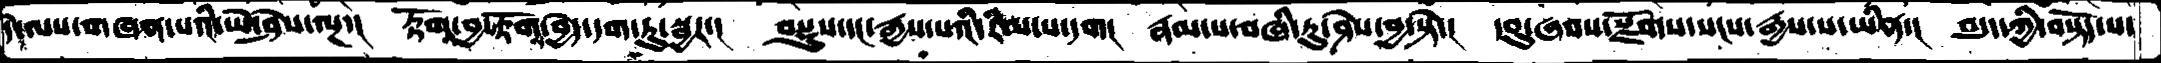དེ་ལས་གཞན་པའི་ཡེ་ཤེས་ལྔ་།  རྟོག་བྱ་རྟོག་བྱེད་དག་ཏུ་སྦྱར་།  བསྡུས་དང་རྒྱས་པའི་རིམ་པ་དག།  རྣམ་པ་བཞི་རུ་ཤེས་བྱ་སྟེ་།  དབུ་ཞབས་སྫོགས་སངས་རྒྱས་པ་ཡིན་།  བདུད་ཀྱི་བསྟོད་པ་
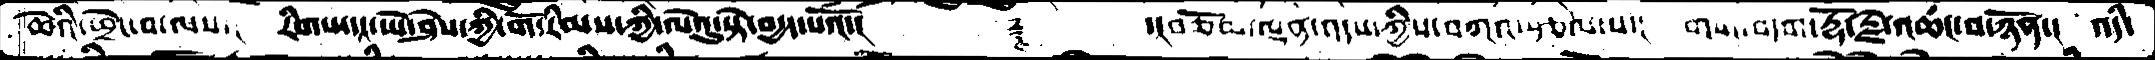ཆེའི་ཕྲེང་བ་ལས་།  རིགས་དང་ཡེ་ཤེས་ཀྱི་གོ་རིམས་ཀྱི་ལེའུ་སྟེ་བདྱད་པའོ་།      ༈       ་།བཅོམ་ལྡན་འདས་ཀྱིས་བཀའ་སྩལ་པ་།  གསང་བདག་རྡོ་རྗེ་འཆང་བ་ཉོན་།  འདི་
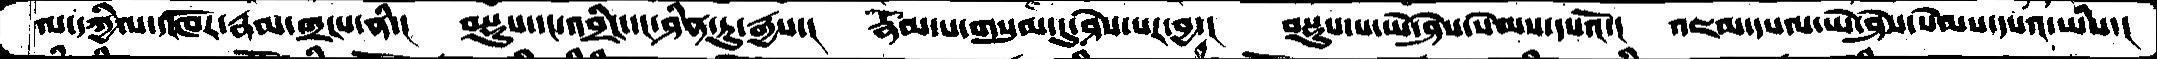ལ་དཀྱིལ་འཁོར་རྣམ་གྲངས་ནི་།  བསྡུས་དང་འབྲིང་དང་ཤིན་ཏུ་རྒྱས་།  རྣམ་པ་གསུམ་དུ་ཤེས་པར་བྱ་།  བསྡུས་པ་ཡེ་ཤེས་སེམས་དཔའོ་།  འཇམ་དཔལ་ཡེ་ཤེས་སེམས་དཔའ་ཡིས་།
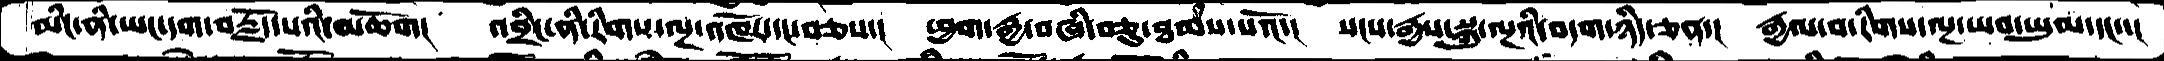མིང་ནི་ཡང་དག་བརྗོད་པའི་མཆོག།  འབྲིང་ནི་རིགས་ལྔ་འཁོར་དང་བཅས་།  ཕྱག་རྒྱ་བཞི་བཅུ་ཐམས་པའོ་།  སངས་རྒྱས་སྐུ་ལྔའི་བདག་ཉིད་ཅན་།  རྒྱལ་བ་རིགས་ལྔ་ཡབ་ཡུམ་དང་་།
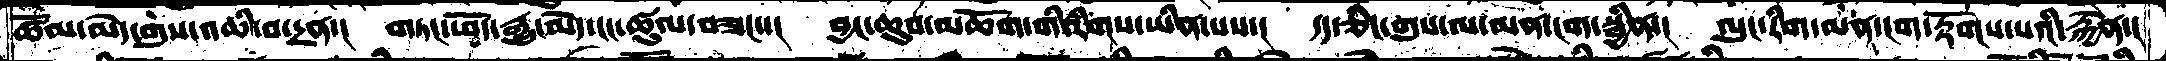ཚོམ་མེད་གུས་འཆི་བ་དྲན་།  གཏང་ཕོད་རྒྱུ་མེད་ངང་ཚུལ་བཟང་་།  བྱང་ཆུབ་མཆོག་གི་རིགས་ཡིན་པས་།  དད་ཅིང་གུས་ལ་མན་ངག་སྦྱིན་།  ལུང་རིག་མན་ངག་རྟོགས་པའི་རྐྱེན་།
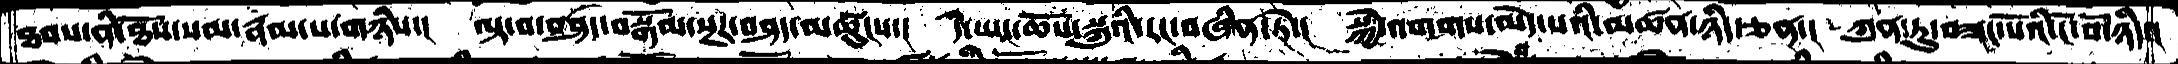ཐབས་ནི་ཐོས་སམ་རྣམ་པ་གཉིས་།  ལྟ་བ་བཤད་བསྒོམ་སྔར་བཤད་མཚུངས་།  དེ་ཡང་ཆོས་སྐུའི་རང་བཞིན་ཏེ་།  སྐྱེ་འགགས་མེད་པའི་མཚན་ཉིད་ཅན་།  ཀུན་ཏུ་བཟང་པོའི་ངོ་བོ་ཉིད་།
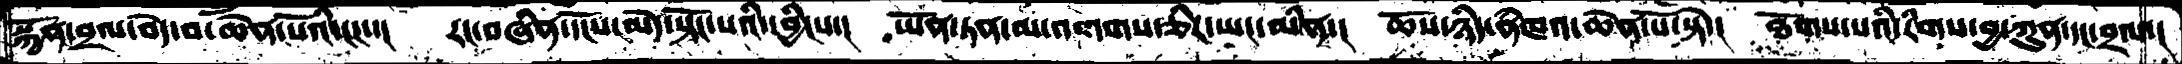སྐྱོན་བྲལ་བདེ་བ་ཆེན་པོའི་ངང་་།  རང་བཞིན་དངོས་མེད་སྟོང་པའི་དབྱིངས་།  ཡོན་ཏན་མ་འགགས་ཅིར་ཡང་མིན་།  ཆོས་ཉིད་ནཾཁའ་ཆེན་པོ་སྟེ་།  ཐོགས་པའི་རིགས་བྱ་ཀུན་དང་བྲལ་།
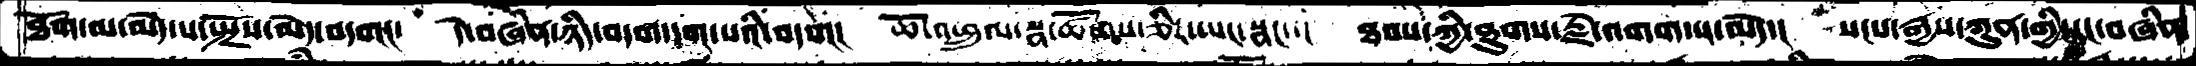ཐོག་མ་མེད་པ་སྤྲོས་མེད་བདག།་   དེ་བཞིན་ཉིད་བདག་དག་པའི་བདག།  ཆོ་འཕྲུལ་སྣ་ཚོགས་ཅིརཡང་སྣང་་།  ཐབས་ཀྱི་ཐུགས་རྗེ་འགག་པ་མེད་།  སངས་རྒྱས་ཀུན་གྱི་རང་བཞིན
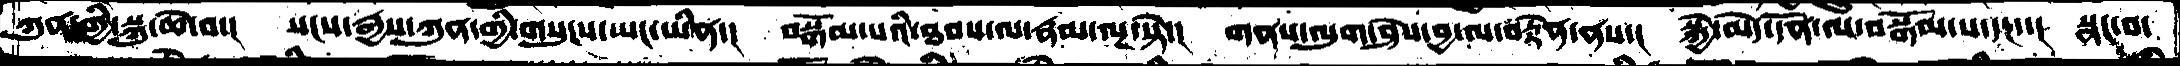ཀུན་གྱི་སྐུ་ཆེ་བ་།  སངས་རྒྱས་ཀུན་གྱི་གསུངས་ཡང་ཡིན་།  བསྒོམ་པའི་ཐབས་ལ་རྣམ་ལྔ་སྟེ་།  གནས་ལུགས་ཤེས་བྱ་ལ་བརྟེན་ནས་།  སྐྱེ་མེད་དོན་ལ་བསྒོམ་པ་དང་་།  སྣང་བ་
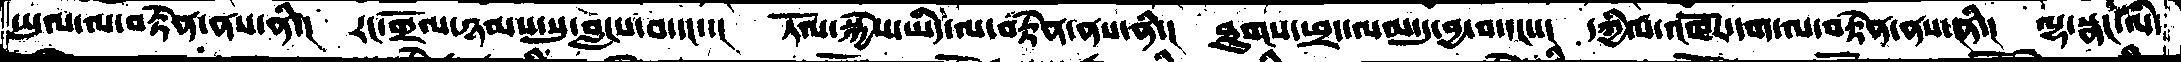ཡུལ་ལ་བརྟེན་ནས་ནི་།  རང་གྲོལ་ཉམས་སུ་བླངས་བ་དང་་།  ཏོལ་སྐྱེས་ཡིད་ལ་བརྟེན་ནས་ནི་།  ཐུགས་ཕྲད་ལམ་དུ་བྱ་བ་དང་་།  དཀྱིལ་འཁོར་དག་ལ་བརྟེན་ནས་ནི་།  ལྷ་སྣང་ལཾ་
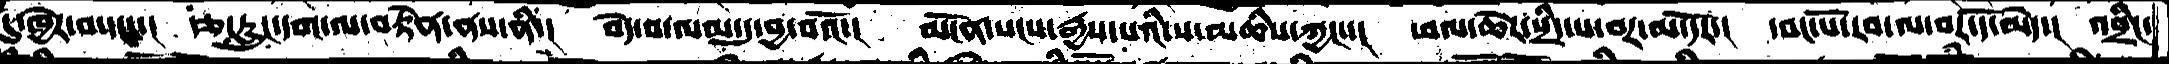དུ་ཁྱེར་བ་དང་་།  རྩ་རླུང་དག་ལ་བརྟེན་ནས་ནི་།  བདེ་བ་ལམ་དུ་བྱ་བའོ་།  མངོན་སངས་རྒྱས་པའི་ས་མཆཾས་ཀྱང་་། ཕལ་ཆེར་སྲིད་པ་བར་མ་དོར་།  དབང་པོ་རབ་ལ་བར་དོ་མེད་།  འབྲིང་
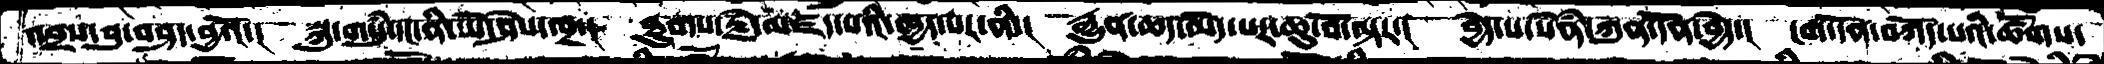འབྲས་བུ་བཤད་བྱའོ་།  སྐུ་གསུཾ་དང་ནི་་ཡེ་ཤེས་ལྔ་།  ཐུགས་རྗེ་མཛད་པའི་ཁྱད་པར་ནི་།  རྒྱུན་ཆད་མེད་པར་ཆུ་བོ་ལྟར་།  བྱེད་པ་སེཾན་ཀུན་དོན་བྱེད་།  ངག་དོན་བཀོད་པའི་ཚོགས་
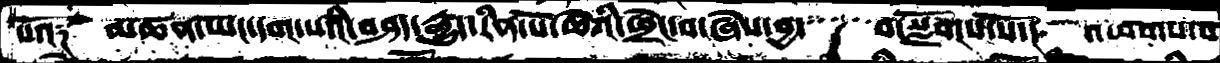པའོ༑  མཚན་ཡང་དག་པའི་བཤད་རྒྱུད་རིན་པོ་ཆེའི་ཕྲེང་བ་ཞེས་བྱ་     བ་སྫོགས་སོ་།  འཕགས་པ་
